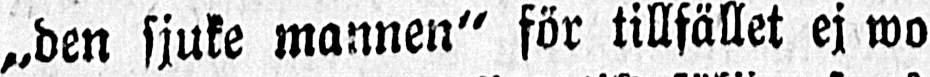„den sjuke mannen" för tillfället ej wo-
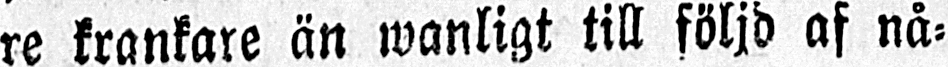re krankare än wanligt till följd af nå-
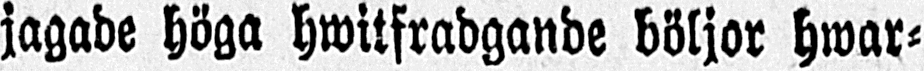jagade höga hwitfradgande böljor hwar-
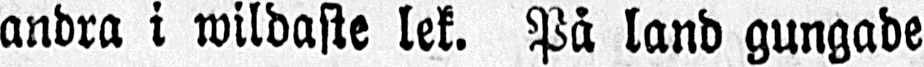andra i wildaste lek. På land gungade
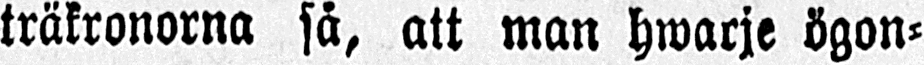träkronorna så, att man hwarje ögon-
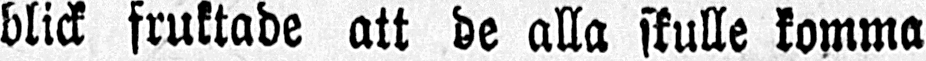blick fruktade att de alla skulle komma
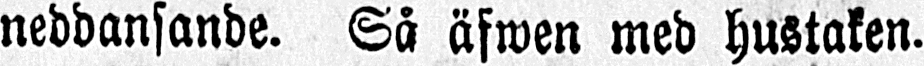neddansande. Så äfwen med hustaken.
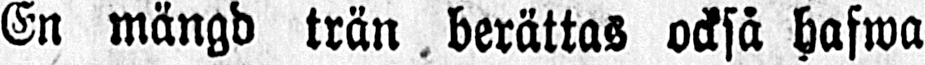En mängd trän berättas också hafwa
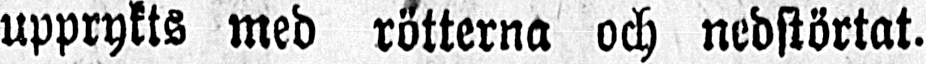upprykts med rötterna och nedstörtat.
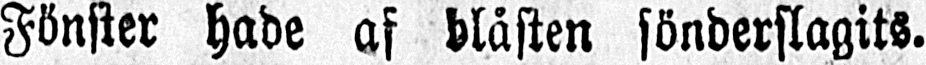Fönster hade af blåsten sönderslagits.
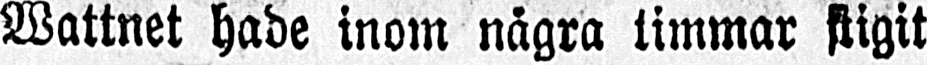Wattnet hade inom några timmar stigit
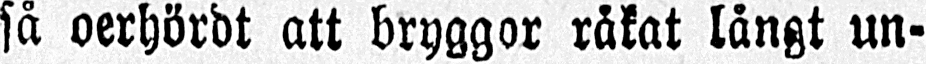så oerhördt att bryggor råkat långt un-
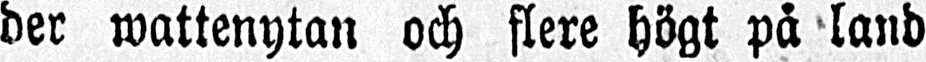der wattenytan och flere högt på land
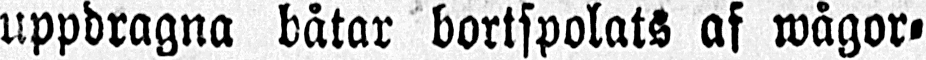uppdragna båtar bortspolats af wågor-
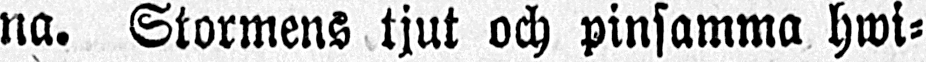na. Stormens tjut och pinsamma hwi-
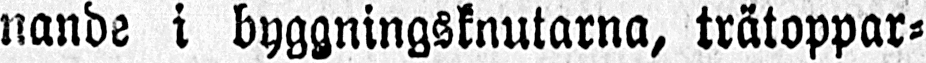nande i byggningsknutarna, trätoppar-
